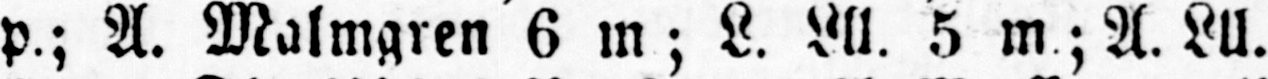p.; A. Malmgren 6 m ; L. Lll. 5 m ;A. Lll.
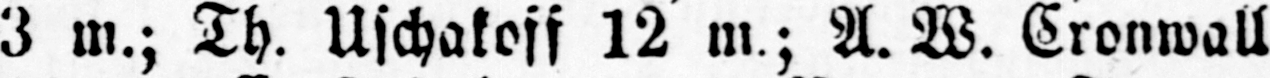3 m.; Th. Uschakoff 12 m.; A. W. Cronwall
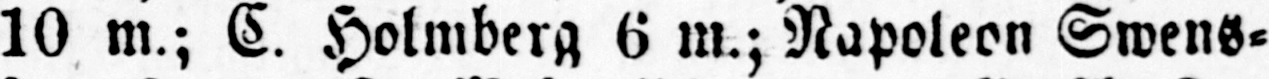10 m.; C. Holmberg 6 m.; Napoleon Swens-
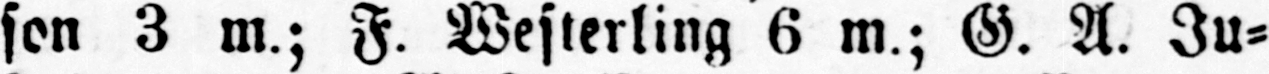son 3 m.; F. Westerling 6 m.; G. A. Ju-
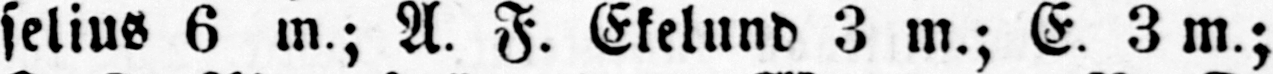selius 6 m.; A. F. Ekelund 3 m.; E. 3 m.;
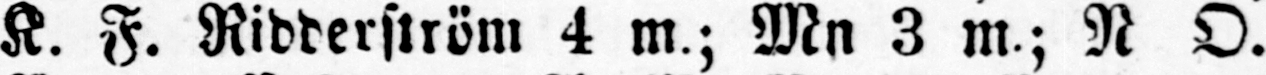K. F. Ridderström 4 m.; Mn 3 m.; N O.
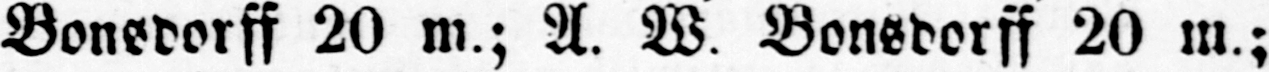Bonsdorff 20 m.; A. W. Bonsdorff 20 m.;
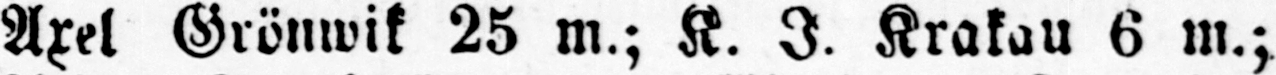Axel Grönvik 25 m.; K. I. Krakau 6 m.;
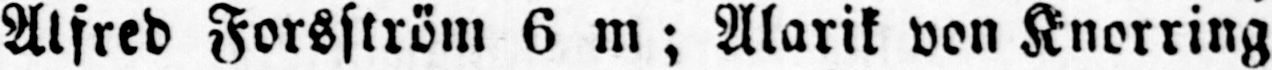Alfred Forsström 6 m ; Alarik von Knorring
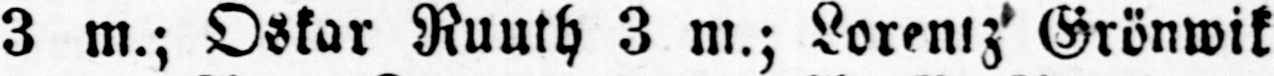3 m.; Oskar Ruuth 3 m.; Loreniz' Grönwik
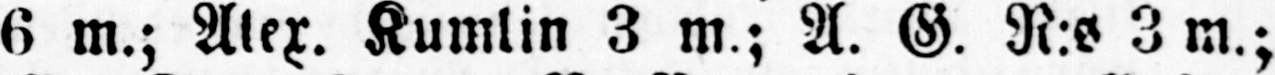6 m.; Alex. Kumlin 3 m.; A. G. N.s 3 m.;
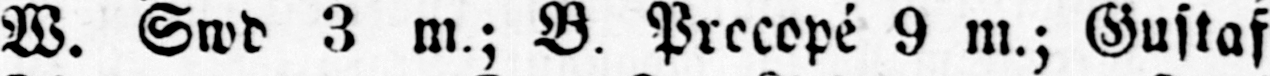W. Swd 3 m.; B. Procopé 9 m.; Gustaf
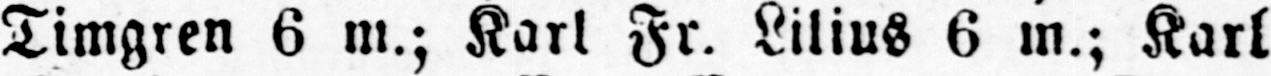Timgren 6 m.; Karl Fr. Lilius 6 m.; Karl
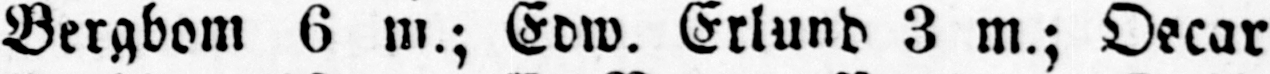Bergbom 6 m.; Edw. Erlund 3 m.; Oscar
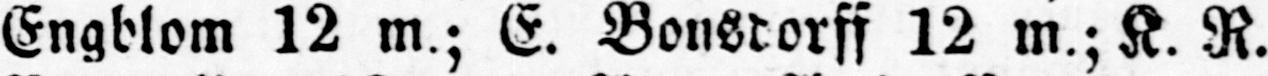Engblom 12 m.; E. Bonsdorff 12 m.; K. R.
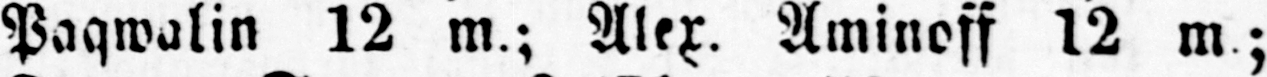Paqwalin 12 m.; Alex. Aminoff 12 m.;
